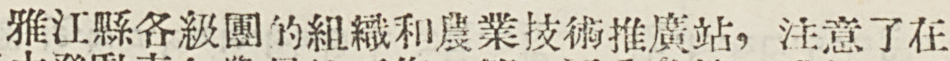雅江縣各級團的組織和農業技術推廣站，注意了在
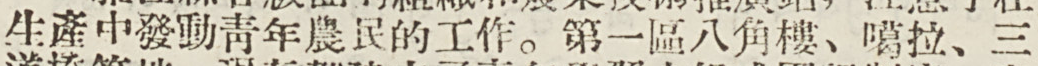生產中發動靑年農民的工作。第一區八角樓、噶拉、三
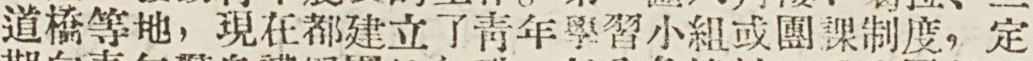道橋等地，現在都建立了靑年學習小組或團課制度，定
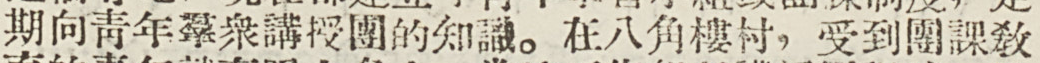期向靑年羣衆講授團的知識。在八角樓村，受到團課敎
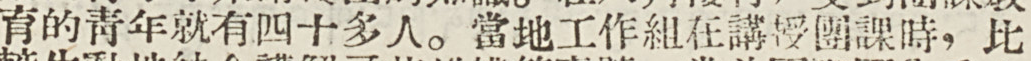育的靑年就有四十多人。當地工作組在講授團課時，比
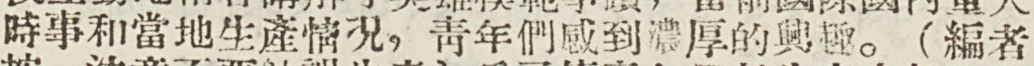時事和當地生產情況，靑年們感到豐厚的興趣。（編者
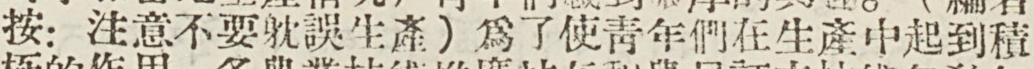按：注意不要耽誤生產）爲了使靑年們在生產中起到積
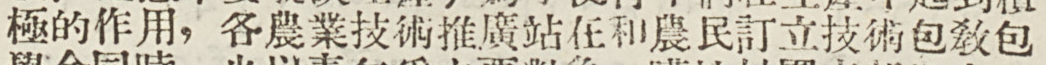極的作用，各農業技術推廣站在和農民訂立技術包敎包
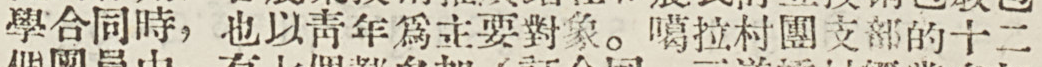學合同時，也以靑年爲主要對象。噶拉村團支部的十二
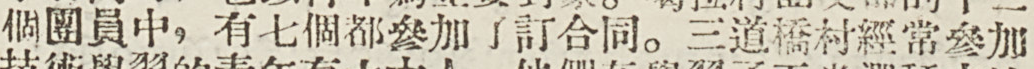個團員中，有七個都參加了訂合同。三道橋村經常參加
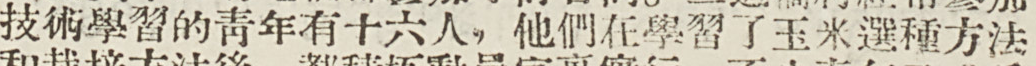技術學習的靑年有十六人，他們在學習了玉米選種方法
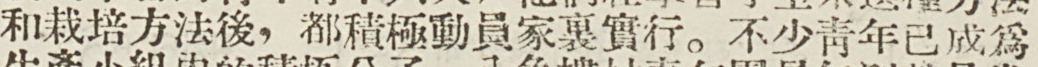和栽培方法後，都積極動員家裏實行。不少靑年已成爲
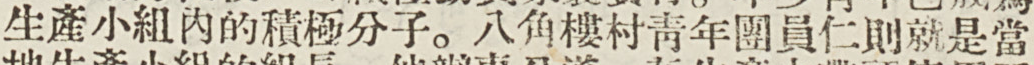生產小組內的積極分子。八角樓村靑年團員仁則就是當
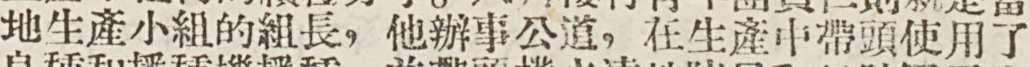地生產小組的組長，他辦事公道，在生產中帶頭使用了
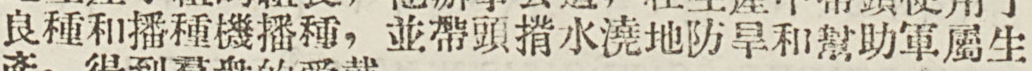良種和播種機播種，並帶頭揹水澆地防旱和幫助軍屬生
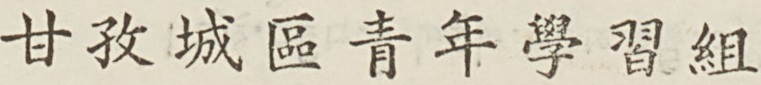甘孜城區青年學習組
